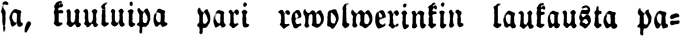sa, kuuluipa pari rewolwerinkin laukausta pa-
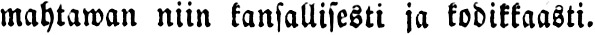mahtawan niin kansallisesti ja kodikkaasti.
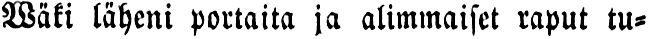Wäki läheni portaita ja alimmaiset raput tu-
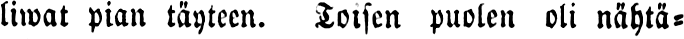tuwat pian täyteen. Toisen puolen oli nähtä-
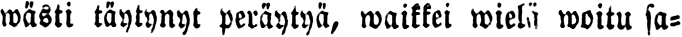wästi täytynyt peräytyä, waikkei wielä woitu sa-
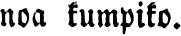noa kumpiko.
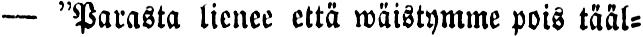— "Parasta lienee että wäistymme pois tääl-
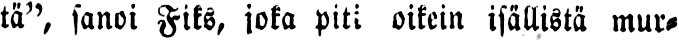tä", sanoi Fiks, joka piti oikein isällistä mur-
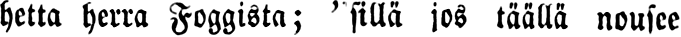hetta herra Foggista; " sillä jos täällä nousee
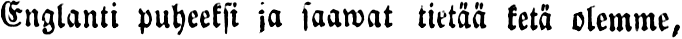Englanti puheeksi ja saawat tietää ketä olemme,
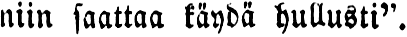niin saattaa käydä hullusti".
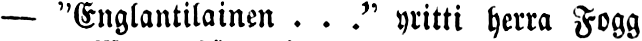— "Englantilainen . . ." yritti herra Fogg
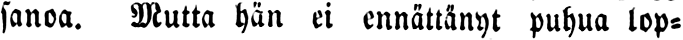sanoa. Mutta hän ei ennättänyt puhua lop-
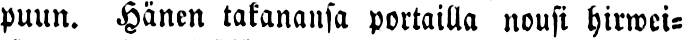puun. Hänen takanansa portailla nousi hirwei-
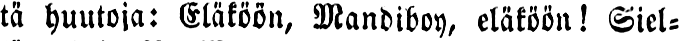tä huutoja: Eläköön, Mandiboy, eläköön! Siel-
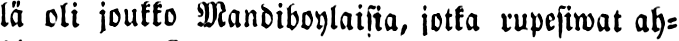lä oli joukko Mandiboylaisia, jotka rupesiwat ah-
